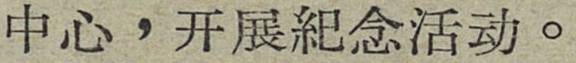中心，开展紀念活动。
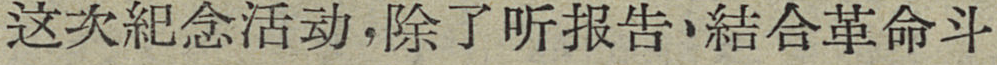这次紀念活动，除了听报告、結合革命斗
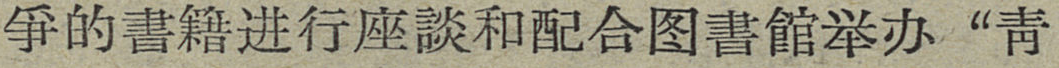爭的書籍进行座談和配合图書館举办“靑
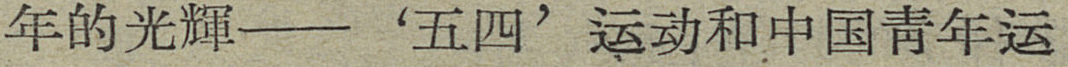年的光輝——‘五四’运动和中国靑年运
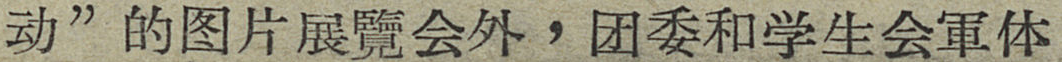动”的图片展覽会外，团委和学生会軍体
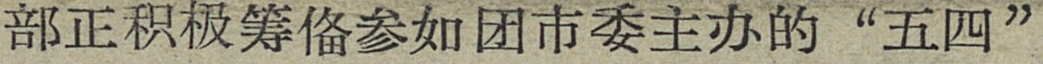部正积极筹備参加团市委主办的“五四”
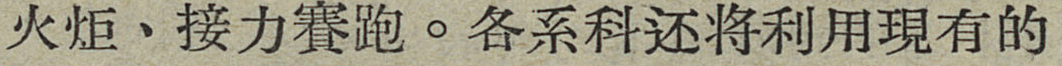火炬、接力賽跑。各系科还将利用現有的
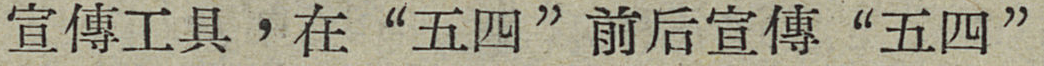宣傳工具，在“五四”前后宣傳“五四”
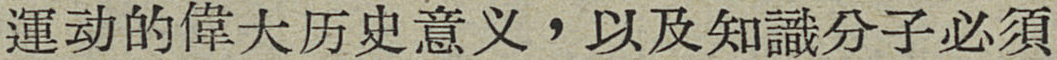運动的偉大历史意义，以及知識分子必須
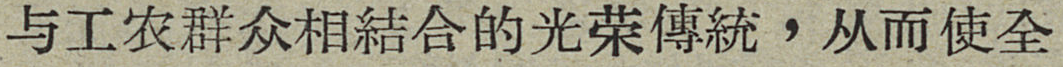与工农群众相結合的光荣傳統，从而使全
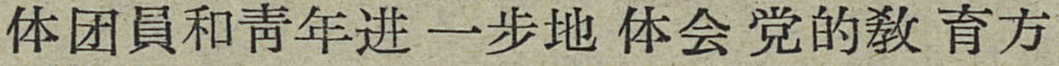体团員和靑年进一步地体会党的敎育方
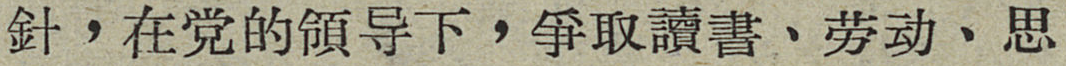針，在党的領导下，爭取讀書、劳动、思
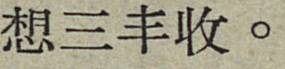想三丰收。
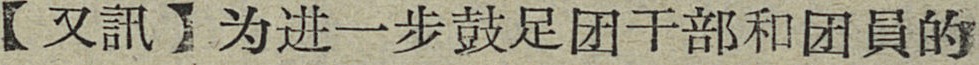【又訊】为进一步鼓足团干部和团員的
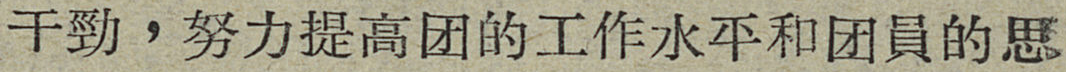干勁，努力提高团的工作水平和团員的思
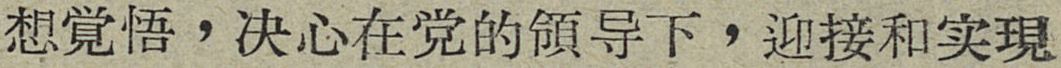想覚悟，决心在党的領导下，迎接和实現
